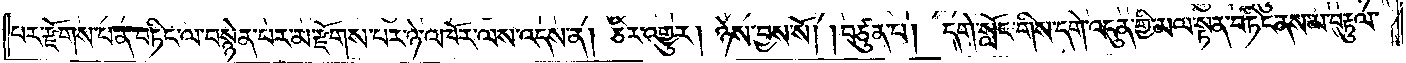པར་རྫོགས་པ་ན་བཏིང་ལ་བསྙེན་པར་མ་རྫོགས་པར་ཉེ་འཁོར་ལས་འདས་ན། ཅིར་འགྱུར། ཉེས་བྱས་སོ། །བཙུན་པ། དགེ་སློང་གིས་དགེ་འདུན་གྱི་མལ་སྟན་བཏིང་ནས་མ་བརྟུལ་
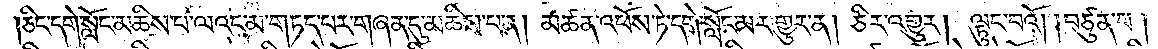ཅིང་དགེ་སློང་མཆིས་པ་ལའང་མ་གཏད་པར་གཞན་དུ་མཆིས་པ་ན། མཚན་འཕོས་ཏེ་དགེ་སློང་མར་གྱུར་ན། ཅིར་འགྱུར། ལྟུང་བའོ། །བཙུན་པ།
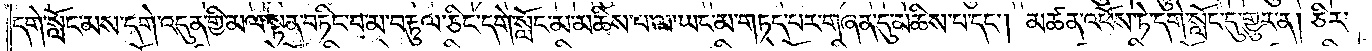དགེ་སློང་མས་དགེ་འདུན་གྱི་མལ་སྟན་བཏིང་བ་མ་བརྟུལ་ཅིང་དགེ་སློང་མ་མཆིས་པ་ལ་ཡང་མ་གཏད་པར་གཞན་དུ་མཆིས་པ་དང༌། མཚན་འཕོས་ཏེ་དགེ་སློང་དུ་གྱུར་ན། ཅིར་
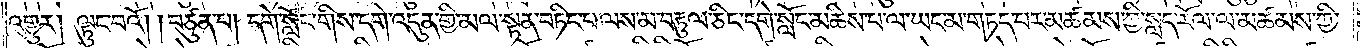འགྱུར། ལྟུང་བའོ། །བཙུན་པ། དགེ་སློང་གིས་དགེ་འདུན་གྱི་མལ་སྟན་བཏིང་པ་ལས་མ་བརྟུལ་ཅིང་དགེ་སློང་མཆིས་པ་ལ་ཡང་མ་གཏད་པར་མཚམས་ཀྱི་སླད་རོལ་ལ་མཚམས་ཀྱི་
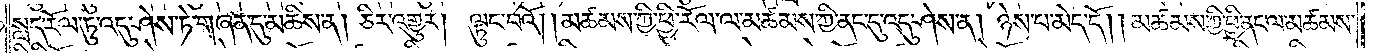སླད་རོལ་ཏུ་འདུ་ཤེས་ཏེ་གཞན་དུ་མཆིས་ན། ཅིར་འགྱུར། ལྟུང་བའོ། །མཚམས་ཀྱི་ཕྱི་རོལ་ལ་མཚམས་ཀྱི་ནང་དུ་འདུ་ཤེས་ན། ཉེས་པ་མེད་དོ། །མཚམས་ཀྱི་ཕྱི་ནང་ལ་མཚམས་
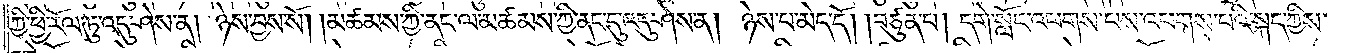ཀྱི་ཕྱི་རོལ་ཏུ་འདུ་ཤེས་ན། ཉེས་བྱས་སོ། །མཚམས་ཀྱི་ནང་ལ་མཚམས་ཀྱི་ནང་དུ་འདུ་ཤེས་ན། ཉེས་པ་མེད་དོ། །བཙུན་པ། དགེ་སློང་འཕགས་པས་འཕགས་པའི་སྐད་ཀྱིས་
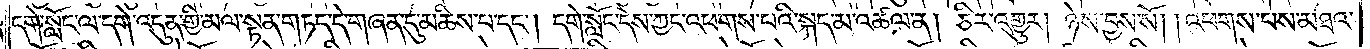དགེ་སློང་ལ་དགེ་འདུན་གྱི་མལ་སྟན་གཏད་དེ་གཞན་དུ་མཆིས་པ་དང༌། དགེ་སློང་དེས་ཀྱང་འཕགས་པའི་སྐད་མ་འཚལ་ན། ཅིར་འགྱུར། ཉེས་བྱས་སོ། འཕགས་པས་མཐའ་
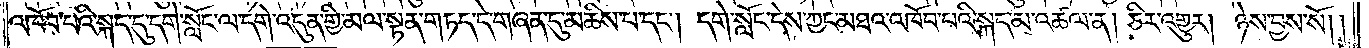འཁོབ་པའི་སྐད་དུ་དགེ་སློང་ལ་དགེ་འདུན་གྱི་མལ་སྟན་གཏད་དེ་གཞན་དུ་མཆིས་པ་དང༌། དགེ་སློང་དེས་ཀྱང་མཐའ་འཁོབ་པའི་སྐད་མ་འཚལ་ན། ཅིར་འགྱུར། ཉེས་བྱས་སོ། །
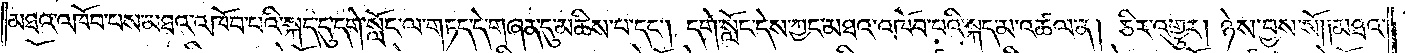མཐའ་འཁོབ་པས་མཐའ་འཁོབ་པའི་སྐད་དུ་དགེ་སློང་ལ་གཏད་དེ་གཞན་དུ་མཆིས་པ་དང༌། དགེ་སློང་དེས་ཀྱང་མཐའ་འཁོབ་པའི་སྐད་མ་འཚལ་ན། ཅིར་འགྱུར། ཉེས་བྱས་སོ། །མཐའ་
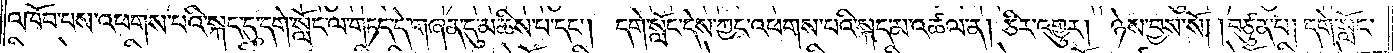འཁོབ་པས་འཕགས་པའི་སྐད་དུ་དགེ་སློང་ལ་གཏད་དེ་གཞན་དུ་མཆིས་པ་དང༌། དགེ་སློང་དེས་ཀྱང་འཕགས་པའི་སྐད་མ་འཚལ་ན། ཅིར་འགྱུར། ཉེས་བྱས་སོ། །བཙུན་པ། དགེ་སློང་
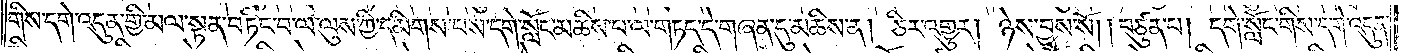གིས་དགེ་འདུན་གྱི་མལ་སྟན་བཏིང་བ་ལ་ལུས་ཀྱི་དམིགས་པས་དགེ་སློང་མཆིས་པ་ལ་གཏད་དེ་གཞན་དུ་མཆིས་ན། ཅིར་འགྱུར། ཉེས་བྱས་སོ། །བཙུན་པ། དགེ་སློང་གིས་དགེ་འདུན་
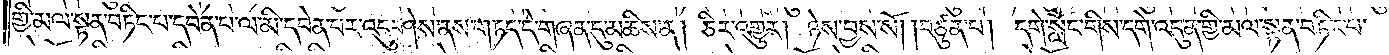གྱི་མལ་སྟན་བཏིང་པ་དབེན་པ་ལ་མི་དབེན་པར་འདུ་ཤེས་ནས་གཏད་དེ་གཞན་དུ་མཆིས་ན། ཅིར་འགྱུར། ཉེས་བྱས་སོ། །བཙུན་པ། དགེ་སློང་གིས་དགེ་འདུན་གྱི་མལ་སྟན་བཏིང་པ་
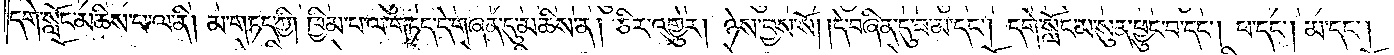དགེ་སློང་མཆིས་པ་ལ་ནི། མ་གཏད་ཀྱི། ཁྱིམ་པ་ལ་གཏད་དེ་གཞན་དུ་མཆིས་ན། ཅིར་འགྱུར། ཉེས་བྱས་སོ། །དེ་བཞིན་དུ་ཟ་མ་དང༌། དགེ་སློང་མ་སུན་ཕྱུང་བ་དང༌། ཕ་དང༌། མ་དང༌།
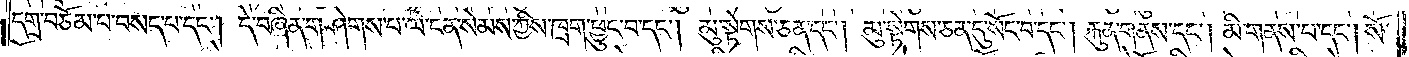དགྲ་བཅོམ་པ་བསད་པ་དང༌། དེ་བཞིན་གཤེགས་པ་ལ་ངན་སེམས་ཀྱིས་ཁྲག་ཕྱུང་བ་དང༌། མུ་སྟེགས་ཅན་དང༌། མུ་སྟེགས་ཅན་དུ་སོང་བ་དང༌། རྐུན་གནས་དང༌། མི་གནས་པ་དང༌། སོ་
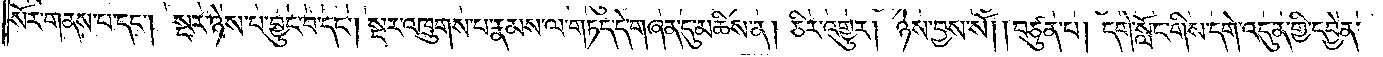སོར་གནས་པ་དང༌། སྔར་ཉེས་པ་བྱུང་བ་དང༌། སྔར་འཁྲུགས་པ་རྣམས་ལ་གཏད་དེ་གཞན་དུ་མཆིས་ན། ཅིར་འགྱུར། ཉེས་བྱས་སོ། །བཙུན་པ། དགེ་སློང་གིས་དགེ་འདུན་གྱི་དབྱེན་
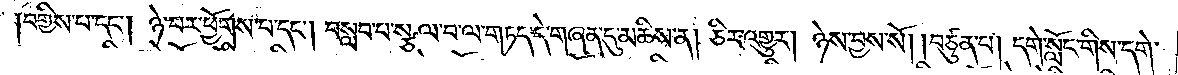།བགྱིས་པ་དང༌། ཉེ་བར་ཕྱོགས་པ་དང༌། བསླབ་པ་སྩལ་བ་ལ་གཏད་དེ་གཞན་དུ་མཆིས་ན། ཅིར་འགྱུར། ཉེས་བྱས་སོ། །བཙུན་པ། དགེ་སློང་གིས་དགེ་
